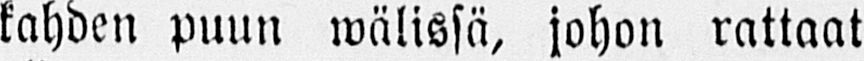kahden puun wälissä, johon rattaat
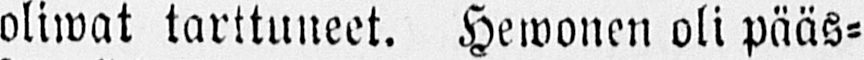oliwat tarttuneet. Hewonen oli pääs-
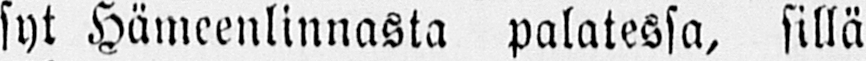syt Hämeenlinnasta palatessa, sillä
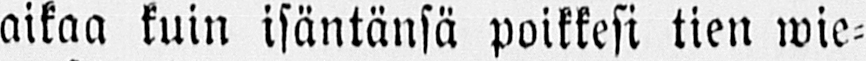aikaa kuin isäntänsä poikkesi tien wie-
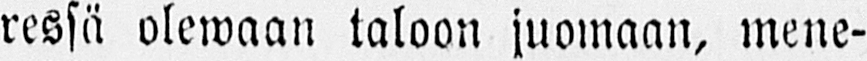ressä olewaan taloon juomaan, mene-
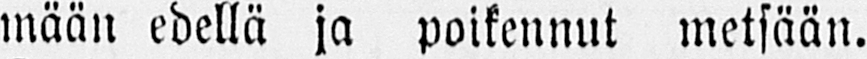mään edellä ja poikennut metsään.
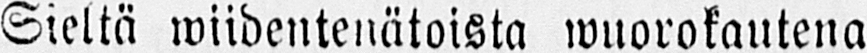Sieltä wiidentenätoista wuorokautena
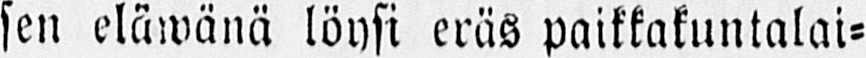sen eläwänä löysi eräs paikkakuntalai-
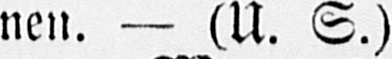nen. — (U. S.)
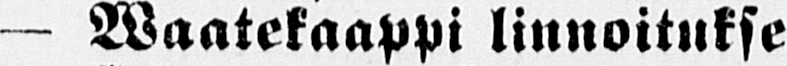— Waatekaappi linnoitukse-
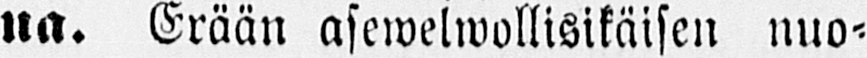na. Erään asewelwollisikäisen nuo-
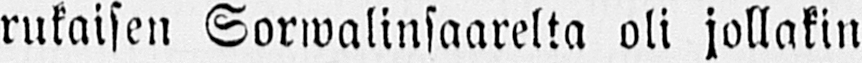rukaisen Sorwalinsaarelta oli jollakin
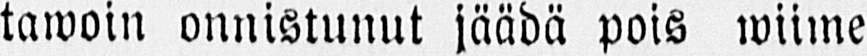tawoin onnistunut jäädä pois wiime
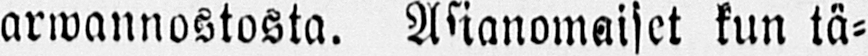arwannostosta. Asianomaiset kun tä-
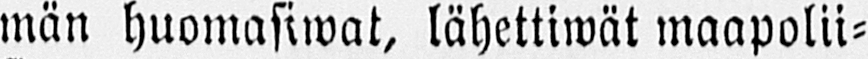män huomasiwat, lähettiwät maapolii-
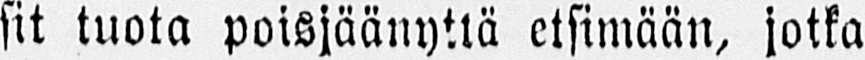sit tuota poisjäänyttä etsimään, jotka
